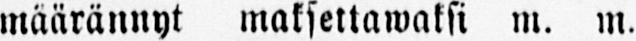määrännyt maksettawaksi m. m.
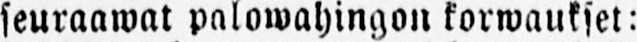seuraawat palowahingon korwaukset:
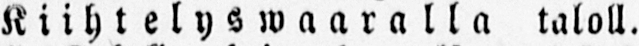Kiihtelyswaaralla taloll.
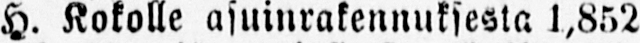H. Kokolle asuinrakennuksesta l,852
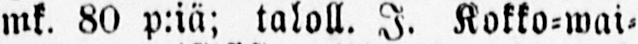mk. 80 p:iä; taloll. I. Kokko-wai-
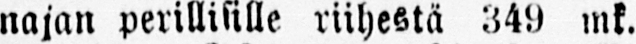najan perillisille riihestä 340 mk.
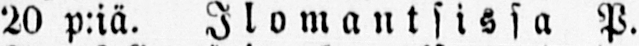20 p:iä. Ilomantsissa P.
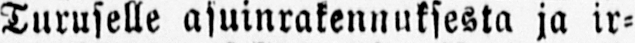Turuselle asuinrakennuksesta ja ir-
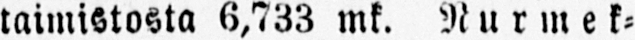taimistosta 6,733 mk. Nurmek-
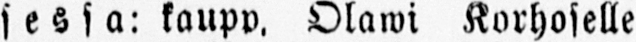sessa: kaupp. Olawi Korhoselle
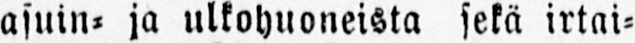asuin- ja ulkohuoneista sekä irtai-
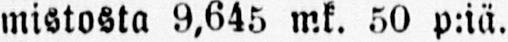mistosta 9,645 mk. 50 p:iä.
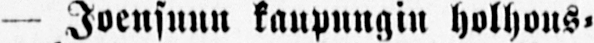— Joensuun kaupungin holhous-
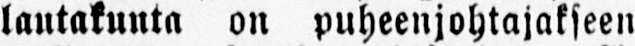lautakunta on puheenjohtajakseen
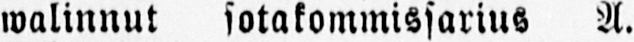walinnut sotakommissarius A.
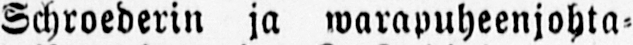Schroederin ja warapuheenjohta-
